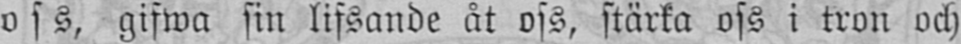o s s, gifwa sin lifsande åt oss, stärka oss i tron och
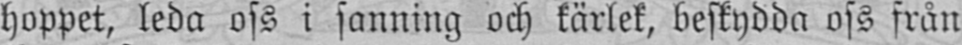hoppet, leda oss i sanning och kärlek, beskydda oss från
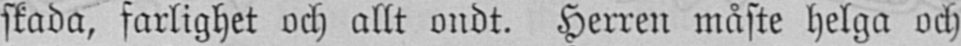skada, farlighet och allt ondt. Herren måste helga och
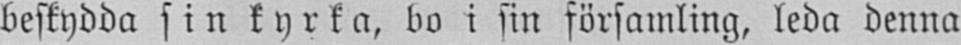beskydda sin kyrka, bo i sin församling, leda denna
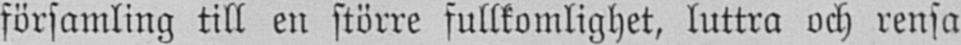församling till en större fullkomlighet, luttra och rensa
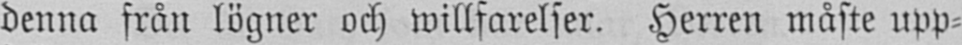denna från lögner och willfarelser. Herren måste upp-
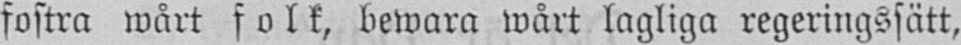fostra wårt folk, bewara wårt lagliga regeringssätt,
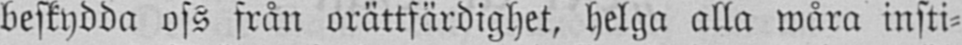beskydda oss från orättfärdighet, helga alla wåra insti-
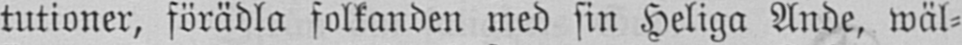tutioner, förädla folkanden med sin Heliga Ande, wäl-
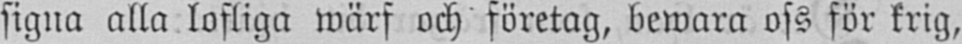signa alla lofliga wärf och företag, bewara oss för krig,
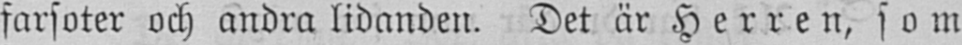farsoter och andra lidanden. Det är Herren, som
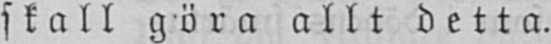skall göra allt detta.
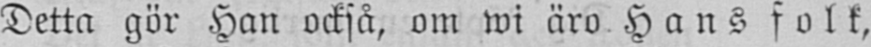Detta gör Han också, om wi äro H a n s folk,
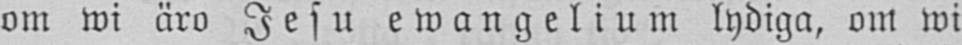om wi äro Jesu ewangelium lydiga, om wi
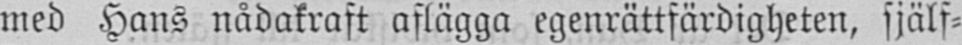med Hans nådakraft aflägga egenrättfärdigheten, själf-
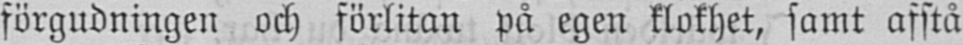förgudningen och förlitan på egen klokhet, samt afstå
